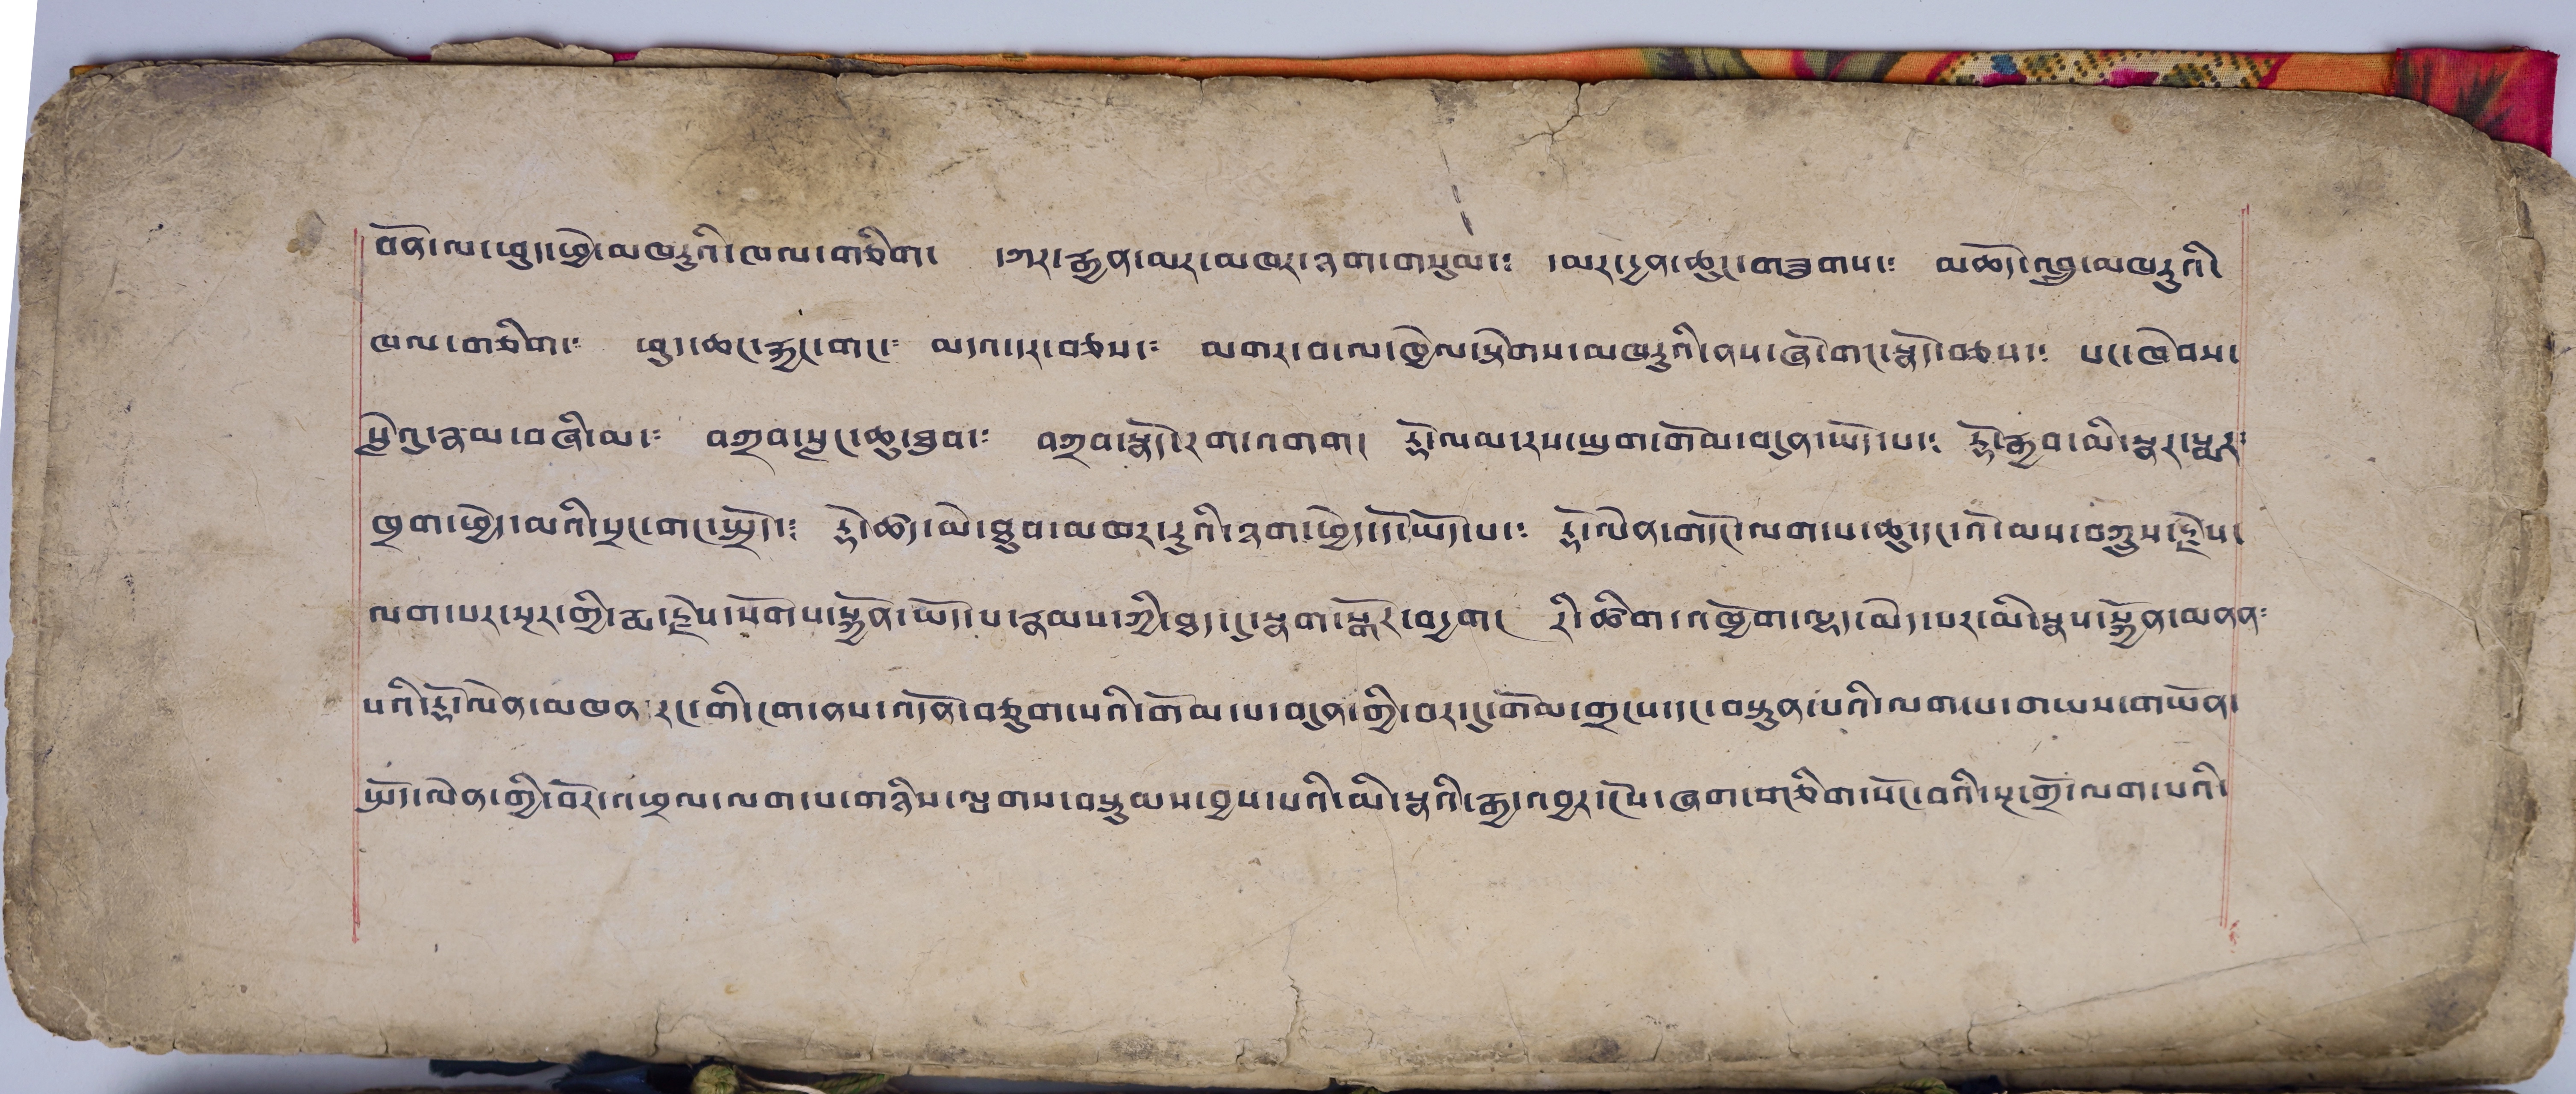བོན་ལ་ཕུད་ཕྱེ་མཁརུའི་ཁལ་གཅིག། དཀར་རྒྱན་མར་མཁར་ཉག་གསུམ་༴ དམར་དྱན་ཆུང་གཟུགས་༴ མཆོད་འབྲུ་མཁརུའི་
ཁལ་གཅིག་༴ ཕུ་ཆང་རྐྱང་གང་༴ མདའ་དར་བཅས་༴ མགར་བ་ལ་ཁྱེལ་སྟེགས་མཁརུའི་ནས་ཞོ་གང་སྣོད་བཅས་༴ པང་ཁེབས་
སླེའུ་རྣམ་བཞི་མ་༴ བཀྲབ་སླང་ཆུ་ཐུབ་༴ བཀྲབ་སྣོད་རག་འགག། རྡོ་ལམ་རས་ཡུག་གོམ་བདུན་ཡོད་པ་༴ རྡོ་རྒྱབ་མི་སྣར་སྨར༴
ཁྲག་ཕྱེད་མའི་སྲང་གང་སྤྲོད་༴ རྡོ་ཚད་མེ་ཐུབ་མཁར་རུའི་ཉག་ཕྱེད་དོ་ཡོད་པ་༴ རྡོ་ལེན་གདོང་ལག་པ་ཆུ་དང་འོ་མས་བཀྲུས་རྗེས་
ལག་པར་སྔར་གྱི་རྨ་རྗེས་སོགས་སྐྱོན་ཡོད་པ་རྣམས་ཀྱི་ཐད་དུ་སྣག་སྒོར་བདྱག། རི་ཚིག་འཁྱོག་ལྷ་མེད་པར་མི་སྣས་སྐྱོན་མནན༴
པའི་རྡོ་ལེན་མཁན་རང་གི་ངག་ནས་འདོན་བཅུག་པའི་གོམ་པ་བདུན་གྱི་བར་དུ་གོམ་གྲངས་དང་བསྟུན་པའི་ལག་པ་གཡས་གཡོན་
སྤོད་ལེན་གྱི་བོར་འཕྲལ་ལག་པ་གཉིས་ལྤགས་བསྟུམས་བྱས་པའི་མི་སྣའི་རྒྱ་འབྱར་ངོས་ཞག་གཅིག་སོང་བའི་སྔ་གྲོ་ལག་པའི་
